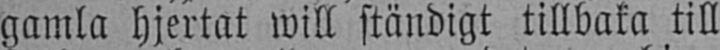gamla hjertat will ständigt tillbaka till
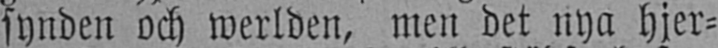synden och werlden, men det nya hjer-
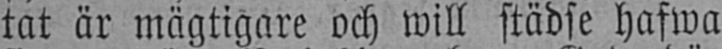tat är mägtigare och will städse hafwa
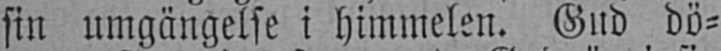sin umgängelse i himmelen. Gud dö-
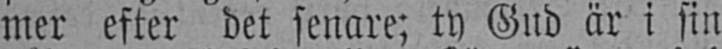mer efter det senare; ty Gud är i sin
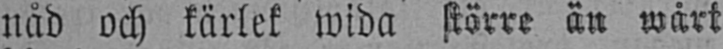nåd och kärlek wida större än wårt
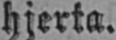hjerta.
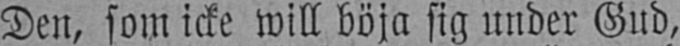Den, som icke will böja sig under Gud,
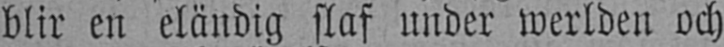blir en eländig slaf under werlden och
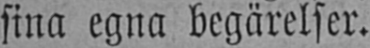sina egna begärelser.
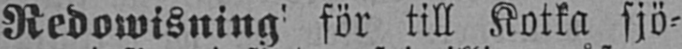Redowisning för till Kotka sjö-
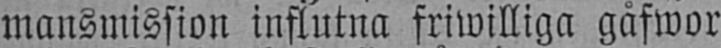mansmission influtna friwilliga gåfwor
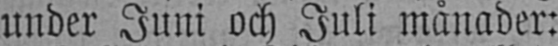under Juni och Juli månader:
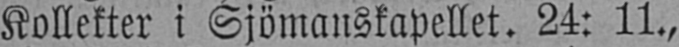Kollekter i Sjömanskapellet. 24: 11.,
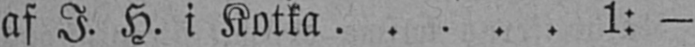af I. H. i Kotka 1: -
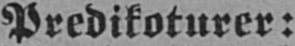Predikoturer:
